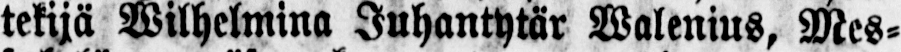tekijä Wilhelmina Juhantytär Walenius, Mes-
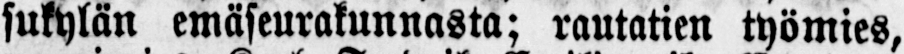sukylän emäseurakunnasta; rautatien työmies,
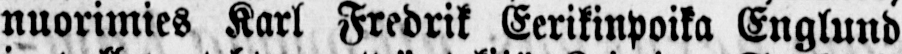nuorimies Karl Fredrik Eerikinpoika Englund
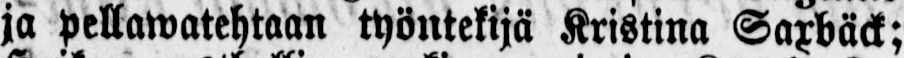jä pellawatehtaan työntekijä Kristina Saxbäck;
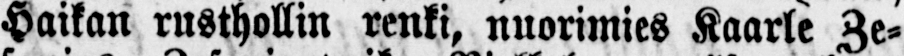Haikan rusthollin renki, nuorimies Kaarle Ze-
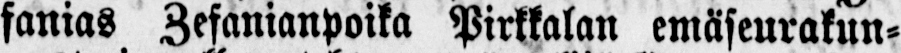fanias Zefanianpoika Pirkkalan emäseurakun-
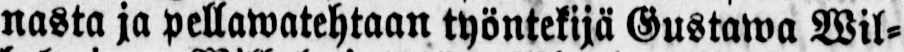nasta ja pellawatehtaan työntekijä Gustawa Wil-
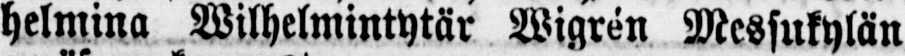helmina Wilhelmintytär Wigrén Messukylän
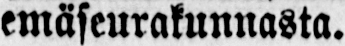emäseurakunnasta.
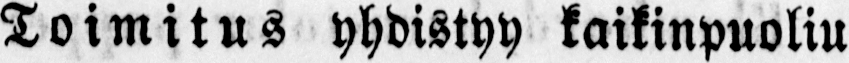Toimitus yhdistyy kaikinpuoliu
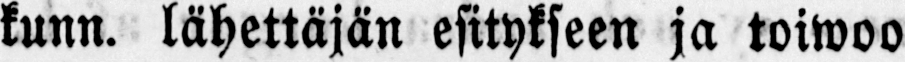kunn. lähettäjän esitykseen ja toiwoo
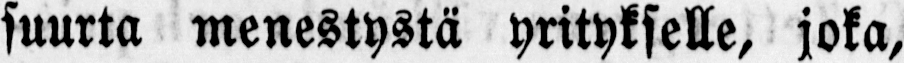suurta menestystä yritykselle, joka,
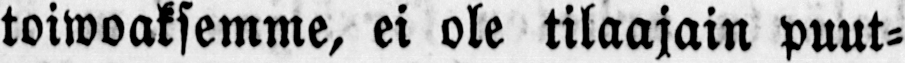toiwoaksemme, ei ole tilaajain puut-
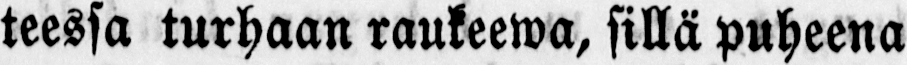teessa turhaan raukeewa, sillä puheena
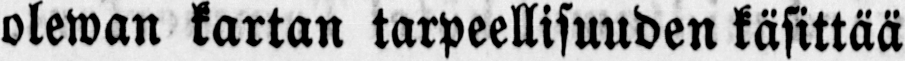olewan kartan tarpeellisuuden käsittää
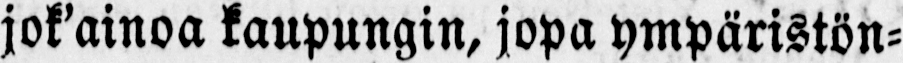jok’ ainoa kaupungin, jopa ympäristön-
